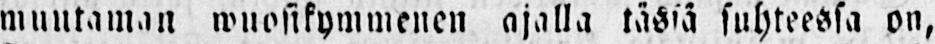muutaman wuosisymmenen ajalla tässä suhteessa on,
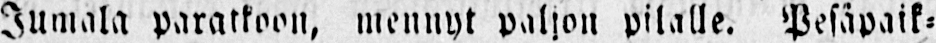Jumala paratkoon, mennyt paljon pilalle. Pesäpai-
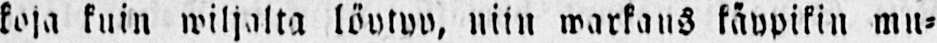koja kuin wiljalta löytyy, niin warkaus käypikin mu-
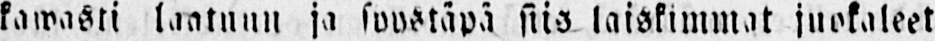kawasti, laatuun ja syystäpä siis laiskimmat juokaleet
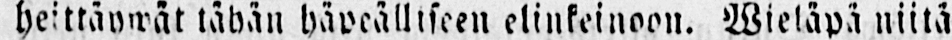heittäywät tähän häveälliseen elinkeinoon. Wieläpä niitä
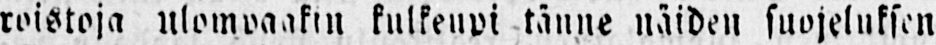roistoja ulompaakin kulkeuvi tänne näiden suojeluksen
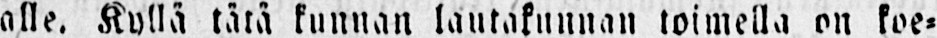alle. Kulia tätä kunnan lautakunnan toimella on koe-
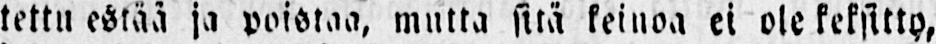tettu estää ja poistaa, mutta sitä keinoa ei ole keksitty,
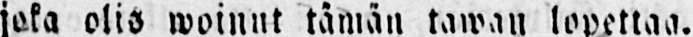joka olis woinut tämä tawan lopettaa.
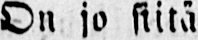On jo siitä
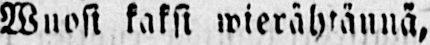Wuosi kaksi wierähtännä,
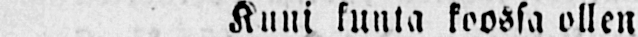Kuni kunta koossa ollen
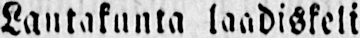Lautakunta laadiskeli
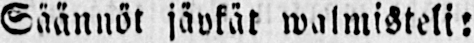Säännöt jäykät walmisteli:
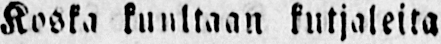Koska kunltaan kutjaleita
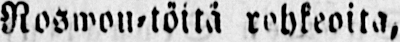Roswon-töitä rohkeoita,
